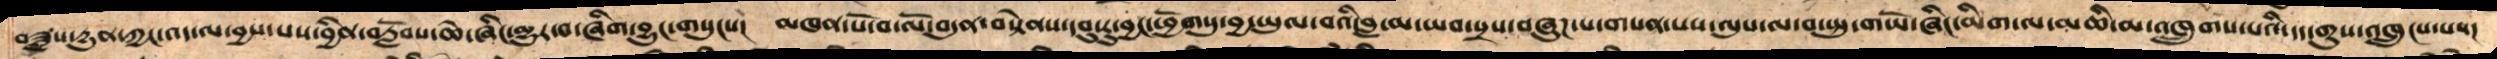བཟླས་དྱུན་ཀྱང་འད་ལ་བྱས་པས་བྱིན་བརློབས་ཆེ་ཞིང་མྱུར་བ་ཞིག་བྱུང་གསུངས།  མཁན་པོ་བ་ལོ་བདུན་བསྟེནས་དབུ་རུ་བྱང་ཕྱོགསུ་བྱ་ཡུལ་བའི་བླ་མ་ཡབ་སྲས་བཞུཌ་པ་གསན་པས་ལུས་ལ་བ་སྤུ་གཡོ་ཞིང་མིག་ལ་མཆི་མ་འཁྲུགས་པའི་དད་གུས་འཁྲུངས་པས་
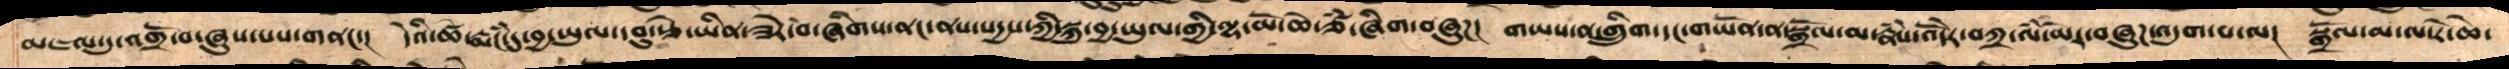མཇལ་དུ་འགྲོ་བ་ཞུས་པས་གནང་།  དེའི་ཚེ་རྨངཾ་དུ་བྱ་ཡུལ་དབུ་རྩེ་ཡིན་ཟེར་བ་ཞིགས་ནང་ནས་སདྱསཀྱི་སྐུ་བྱ་ཡུལ་གྱི་ལྷ་མོ་ཆེ་ཙཾ་ཞིག་བཞུཌ། གཡས་ན་གྲིུག་དང་གཡོན་ན་སྒྲོལ་མ་རྣཾས་འོདེར་བཀྲ་ལཾ་མེར་བཞུཌ་འདུག་པ་ལ།  སྒྲོལ་མ་ལ་རེ་ཆེ་
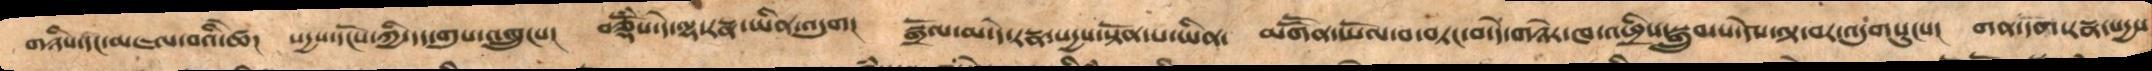གཉིས་དང་མཇལ་བའི་ཚེ།  སདྱས་དངོས་ཀྱི་དད་གུས་འཁྲུངས།   བཅྡོྃས་དེ་ལྷ་རཏྣ་ཡིན་འདུག།  སྒྲོལ་མ་དེ་རཏྣ་སདྱས་སྟོན་པ་ཡིན།  མགཽན་ཡོལ་བ་བཏང་བ་དེ་གཉེར་ཁ་འཕྲིས་སྒྲུབ་པ་དེས་ལྟ་བར་འདུགསུངས།  གན་དོག་རཏྣ་སདྱས་
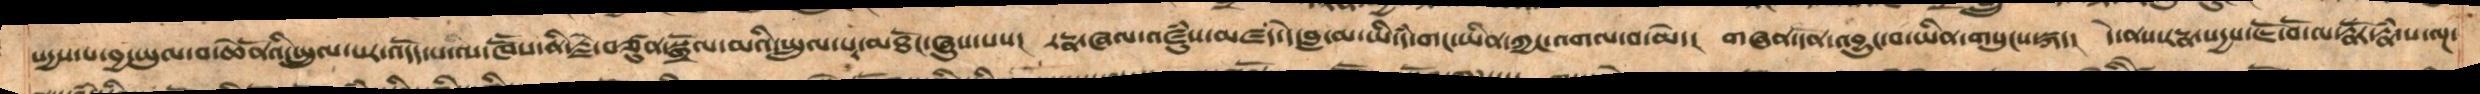སདྱས་པ་བྱ་ཡུལ་བ་ཆེནོའི་སྤྲུལ་པར་འདོད་པ་ལ་ཁཽས་ནི་རྗེ་བཙུན་སྒྲོལ་མའི་སྤྲུལ་པར་མཐོང་ཞུས་པས།  རཏྣ་ཞལ་འཛུཾས་མཛད་དེ་བླ་མ་ཡི་དཾ་གང་ཡིན་ཀྱང་འགལ་བ་མེད།  གཞན་དོན་འབྱུང་བ་ཡིན་གསུངས་སྐད།  དེ་ནས་རཏྣ་སདྱས་ཇོ་བོ་ལ་རྣོར་རྣཾ་པ་ལྔ་
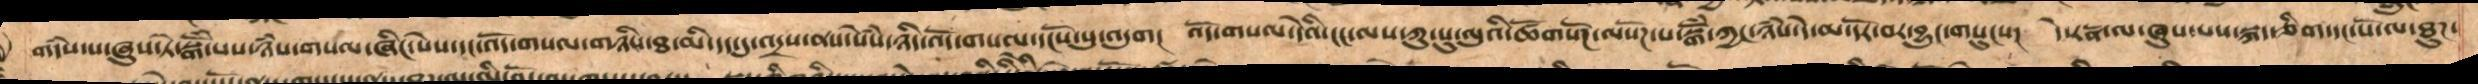གདཾས་པ་ཞུས་ཏེ་སྒོཾ་པས་ཉཾས་གསལ་ཞིང་སེསཾ་དང་འོད་གསལ་གཉིས་ཐ་མི་དད་དུ་འདྲས་ནས་སེསཾ་ཉིད་འོད་གསལ་དངོས་སུ་འདུག།   འོད་གསལ་དེའི་ངང་ལས་ཀུ་སུ་ལུའི་ཚོགསོཌལསོཌ་པ་སྒོཾ་ཀྱང་ཉཾས་དེ་མ་དོར་བར་བྱུང་གསུངས།  དེ་རངྣ་ལ་ཞུས་པས་སྐད་ཅིག་དང་པོ་ལ་ཐུཌ་
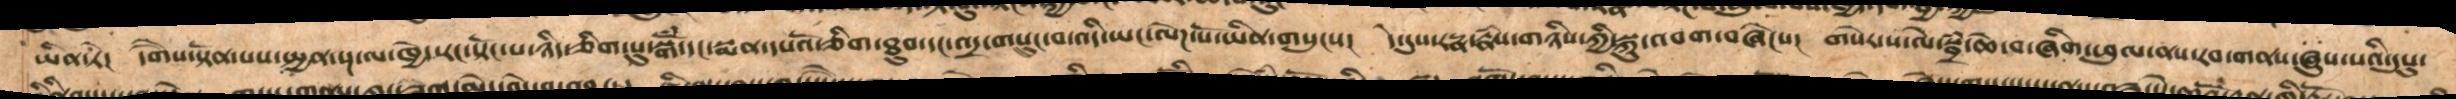ཡིན་ཏེ།  དགཻས་སྟོན་པས་སྤྱན་སྔ་ལ་ཁྱེད་རང་སྟོང་པ་ཉིད་ཅིག་པུ་སྒོཾ་དང་སྨན་དཔའོ་ཅིག་ཐུབ་དང་འདྲ་གསུང་བ་འདི་ཡང་ལེཌ་སོ་ཡིན་གསུངས།   དེ་དུས་རཏྣ་རྣཾས་གཉིས་ཀྱི་སྐུ་འབག་བཞེངས།  གསེར་ས་ལེ་སྦྲཾ་ཆེ་བ་ཞིག་ཕུལ་ནས་རབ་གནས་ཞུས་པའི་དུསུ་
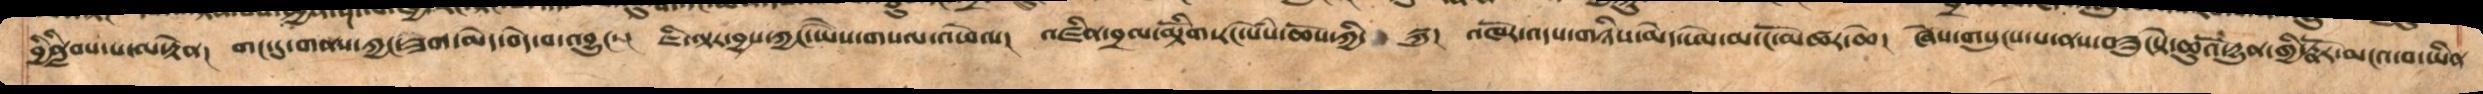བྱིནླིབས་པ་ལ་རྟེན།  གང་དུ་གནས་ཀྱང་ཟག་མེད་བདེ་བ་འབྱུང་།  ཇི་ལྟར་བྱས་ཀྱང་ཡཻས་གསལ་འཕེལ།  འཛིན་བྲལ་མྟོིག་རང་སེསཾ་ཆོས་ཀྱི་སྐུ།  འཁོར་འདས་གཉིས་མེད་ཨེ་མ་ངོ་མཚར་ཆེ།  ཞེས་གསུངས་པ་ནས་བཟུངསྟེ་ཆུའོ་དྱུན་གྱི་རྣོར་མངའ་བ་ཡིན་
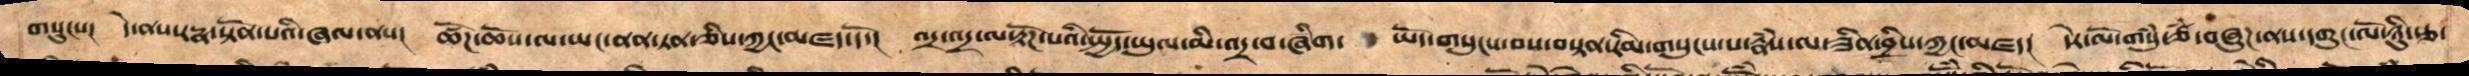གསུངས།  དེ་ནས་རཏྣ་སྟོན་པའི་ཞལ་ནས།  ཚོཌ་ཆོས་ལ་ཡང་ནན་ཏན་ཅིས་ཀྱང་མཛད་དོ་།   འདྲ་འདྲ་ལ་རྟོཌ་པའི་སྤྱོད་ཡུལ་མི་འདྲ་བ་ཞིག་ཡོད་གསུངས་བས་བསྟན་རིམ་གསུངས་པ་རྣཾས་ལ་ཟིན་བྲིས་ཀྱང་མཛད།  དེར་ལོ་གསུཾ་ཙཾ་བཞུཌ་ནས་དགུང་ལོ་ཉིུ་རྩ་
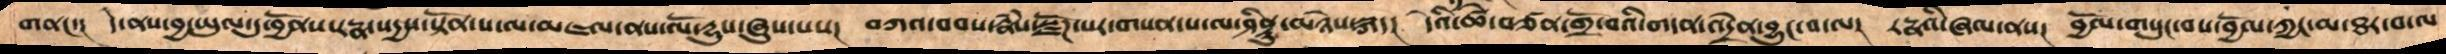གནང་།  དེ་ནས་བྱ་ཡུལ་དུ་བྱོནས་རཏྣ་སདྱས་སྟོན་པ་ལ་མཇལ་ནས་ལོ་དྱུས་ཞུས་པས།  བཀའ་བབས་རྣཾས་སྫོཌ་པར་གསན་པ་ལ་ཤིནྟུ་མཉེས་སྐད།  དེའི་ཚེ་བཙན་གྲོ་བའི་གདན་འདྲེན་བྱུང་བ་ལ།  རཏྣའི་ཞལ་ནས།  བྱོལ་གསུང་བས་བྱོལ་ཀྱང་མ་ཐར་བ་ལ
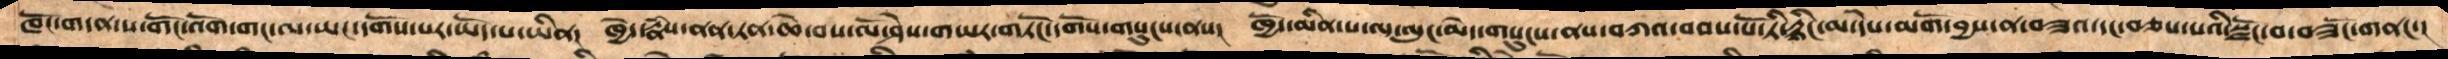ཁོང་གདན་ས་གོང་འོག་གང་ལ་ཡང་དགོས་པར་ཡོད་པ་ཡིན།  ཁྱེད་རྣཾས་ནན་ཏན་ཆེ་བས་ལོ་ཤེས་གཡར་གཏོང་དགོས་གསུངས་ནས།  ཁྱོད་མིན་པ་ལ་ལུང་མེད་གསུངས་ནས་བཀའ་བབས་པོ་ཏི་རྙིང་མ་དེས་མགོ་བྱས་ན་བཟའ་དང་བཅས་པའི་སྫོང་བ་བཟོང་གནང་།
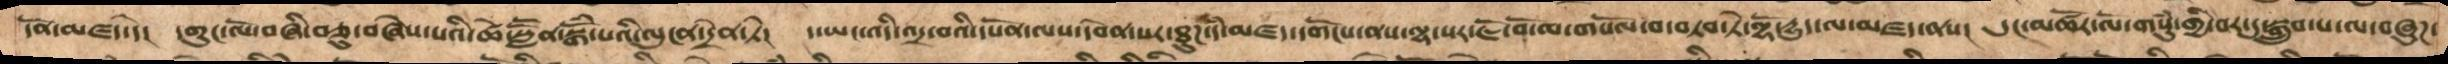དོནོ་མཛད་དེ།  དགུང་ལོ་བཞི་བཅུ་བཞེས་པའི་ཚེ་སླཽན་སྒོཾ་པའི་ལུངན་དྲེན་ཏེ།  ད་ཡང་འདི་འདྲ་བའི་དཔོན་ལས་དབེན་པར་ཐུཌ་་དཾ་མཛད་དགོངས་ནས་ལྷ་སར་ཇོ་བོ་ལ་གསོལ་བ་བཏབ་ཏེ་ལྷོ་དྱུད་ལ་མཛད་ནས།   དུང་མཚོར་ལོ་གསུཾ་གྱི་བར་དུ་སྒྲུབ་པ་ལ་བཞུཌ་
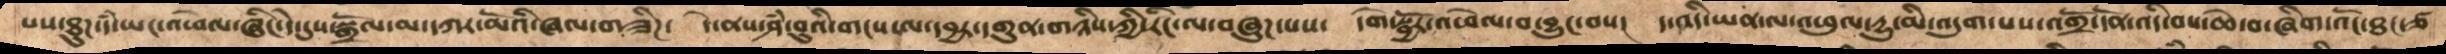པས་ཐུཌ་དཾ་ཡང་འཕེལ་ཞིང་དེ་དུས་སྒྲོལ་མ་དཀར་མོའི་ཞལ་གཟིཌ།   དེ་ནས་ཤཾ་བུའི་གངས་ལ་དབྱར་དགུན་གཉིས་ཀྱི་རིང་ལ་བཞུཌ་པས།  དགེ་སྦྱོར་འཕེལ་བ་བྱུང་བས།  ད་འདི་ཡན་ལ་འཕུལ་དྱུ་མི་འདུག་པས་འགྲོ་དོན་འདི་བས་ཆེ་བ་ཞིག་འོང་ཐང་ཙ
